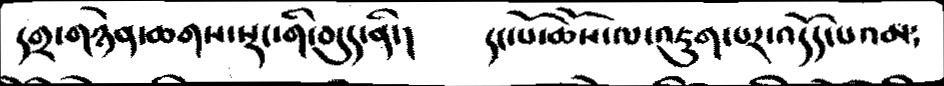དགྲ་གཉེན་ཆགས་སྡང་གི་བདུད་ནི་།    དང་པོ་ཆོས་ལ་འཇུག་པར་འདོད་པའམ༴
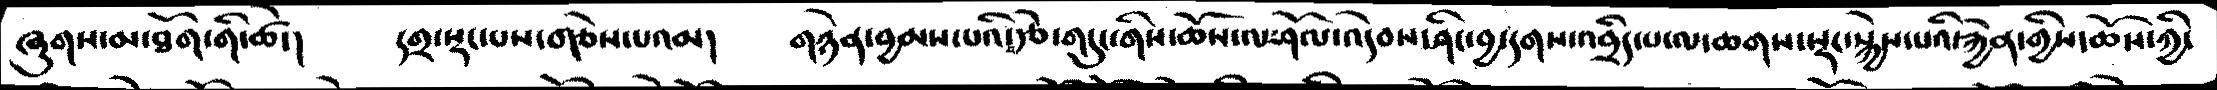ཞུགས་མ་ཐོག་གི་ཚེ་།   དགྲ་སྡང་པས་གཅེས་པའམ།   གཉེན་བྱམས་པའི་བརྩེ་གདུང་གིས་ཆོས་ལ་ཤོལ་འདེབས་ཤིང་བྱ་དགས་འབྲིད་པ་ལ་ཆགས་སྡང་སྐྱེས་པའི་རྐྱེན་གྱིས་ཆོས་ཀྱི་
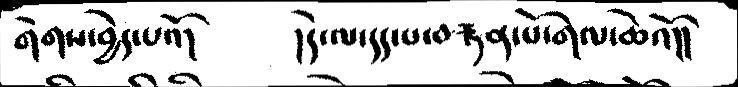གེགས་བྱེད་པའོ།   །དེ་ལ་དད་པ་བརྟན་པོ་གལ་ཆེའོ།།
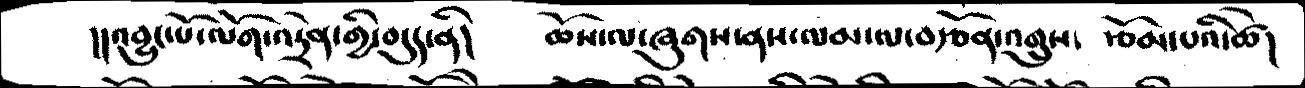།། འབྱུང་པོ་ལོག་འདྲེན་གྱི་བདུད་ནི།    ཆོས་ལ་ཞུགས་ནས་ལམ་ལ་བརྩོན་འགྲུས་   རྩོམ་པའི་ཚེ།
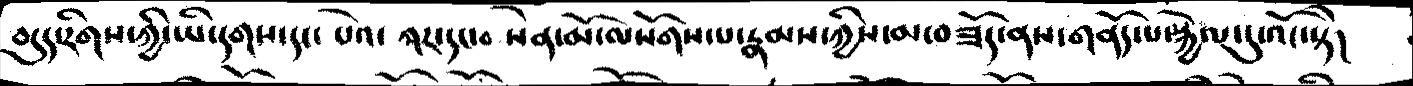བདུད་རིགས་ཀྱི་ཡི་དགས་དང་པེའ་ ཀར་དང་བ སེན་མོ་ལསོགས་པ་རྣམས་ཀྱིས་མ་བཟོད་ནས་གནོད་པ་སྐྱེལ་དུ་འོང་སྟེ།
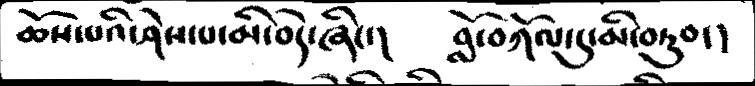ཆོས་པའི་ཤེས་པ་མི་བདེ་ཞིང་།      བློ་བཀོལ་དུ་མི་བཏུབ་།
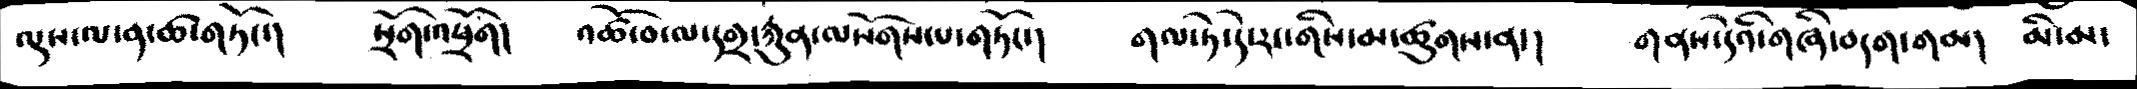ལྔས་ལ་ན་ཚ་གཏོང་།    སྲོག་འཕྲོག།   འཚོ་བ་ལ་དགྲ་རྐུན་ལསོགས་པ་གཏོང་།   གལ་ཏེ་དེ་རང་གིས་མ་ཚུགས་ན་།    གནས་དེའི་གཞི་བདག་གམ།   མི་མ་
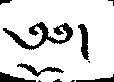༄༅།
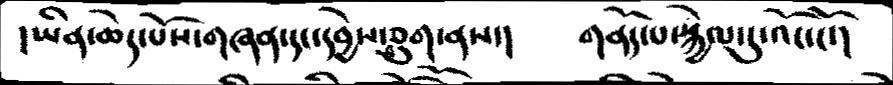།ཡིན་ཆེད་པོས་གཞན་དང་དབྱེས་བཅུག་ནས་།       གནོད་པ་སྐྱེལ་དུ་འོང་ངོ་།
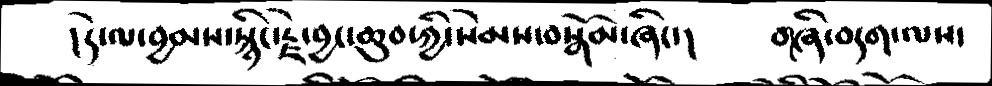།དེ་ལ་བྱམས་སྙིང་རྗེ་བྱང་ཆུབ་ཀྱི་སེམས་བསྒོམ་ཞིང་།     གཞི་བདག་ལས་
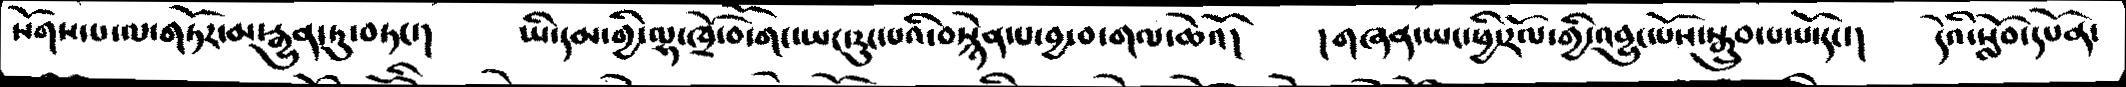སོགས་པ་ལ་གཏོར་མ་རྒྱུན་ཏུ་བཏང་།  ཡི་དམ་གྱི་ལྷ་ཁྲོ་བོ་གང་ཡང་རུང་པའི་བསྙེན་པ་བྱ་བ་གལ་ཆེའོ།   །གཞན་ཡང་ཕྱི་རོལ་གྱི་འབྱུང་པོས་སྒྲུབ་པ་པོ་དང་།  དེའི་སློབ་དཔོན་
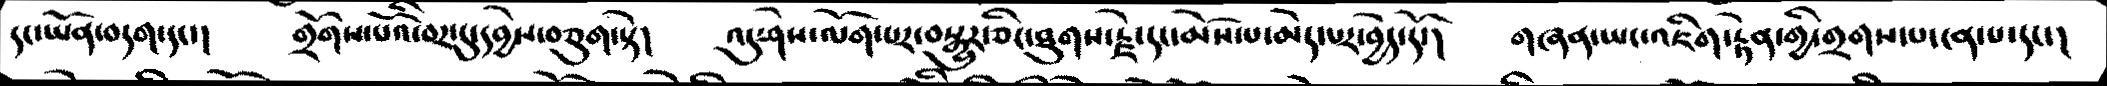དང་ཡོན་བདག་དང་།   གྲོགས་པོའི་བར་དུ་དབྱེས་བཅུག་སྟེ།  འདུ་ཤེས་ལོག་པར་བསྒྱུར་ཅིང་ཐུགས་རྗེ་དང་མོས་པ་མེད་པར་བྱེད་དོ།  གཞན་ཡང་འཇིག་རྟེན་གྱི་གྲགས་པ་ངན་པ་དང་།
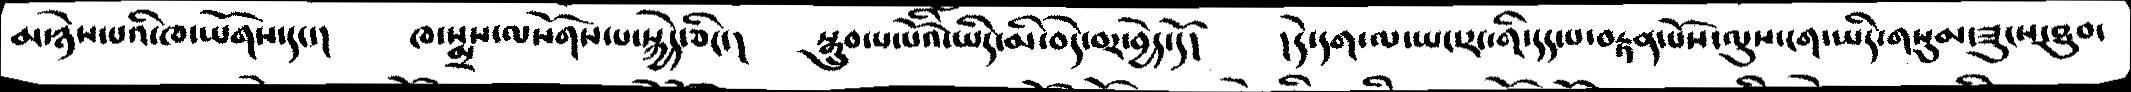མ་ཉེས་པའི་ཁ་ཡོགས་དང་།  ཁ་སྨྲས་ལསོགས་པ་སྐྱེད་ཅིང་།  སྒྲུབ་པ་པོའི་ཡིད་མི་བདེ་བར་བྱེད་དོ།   །དེ་དག་ལ་ཡང་རང་གི་དད་པ་བརྟན་པོས་ལུས་ངག་ཡིད་གསུམ་ཟུངས་ཐུབ་
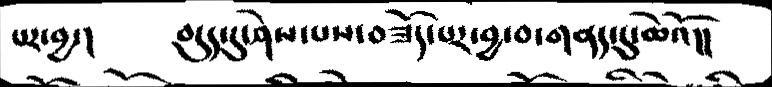པར་བྱ་།   བདུད་དུ་ཤེས་པས་བཟོད་པར་བྱ་བ་གནད་དུ་ཆེའོ།།
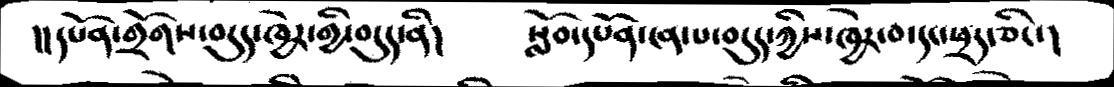།།དཔོན་གྲོགས་བདུད་ཁྱེར་གྱི་བདུད་ནི།  སློབ་དཔོན་ངན་པ་བདུད་ཀྱིས་ཁྱེར་བ་དང་ཕྲད་ཅིང་།
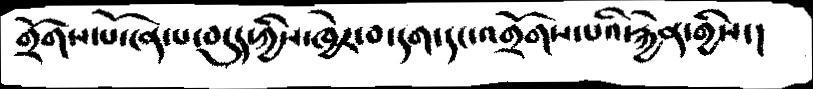གྲོགས་པོ་ངན་པ་བདུད་ཀྱིས་ཁྱེར་བ་དག་དང་འགྲོགས་པའི་རྐྱེན་གྱིས་།
